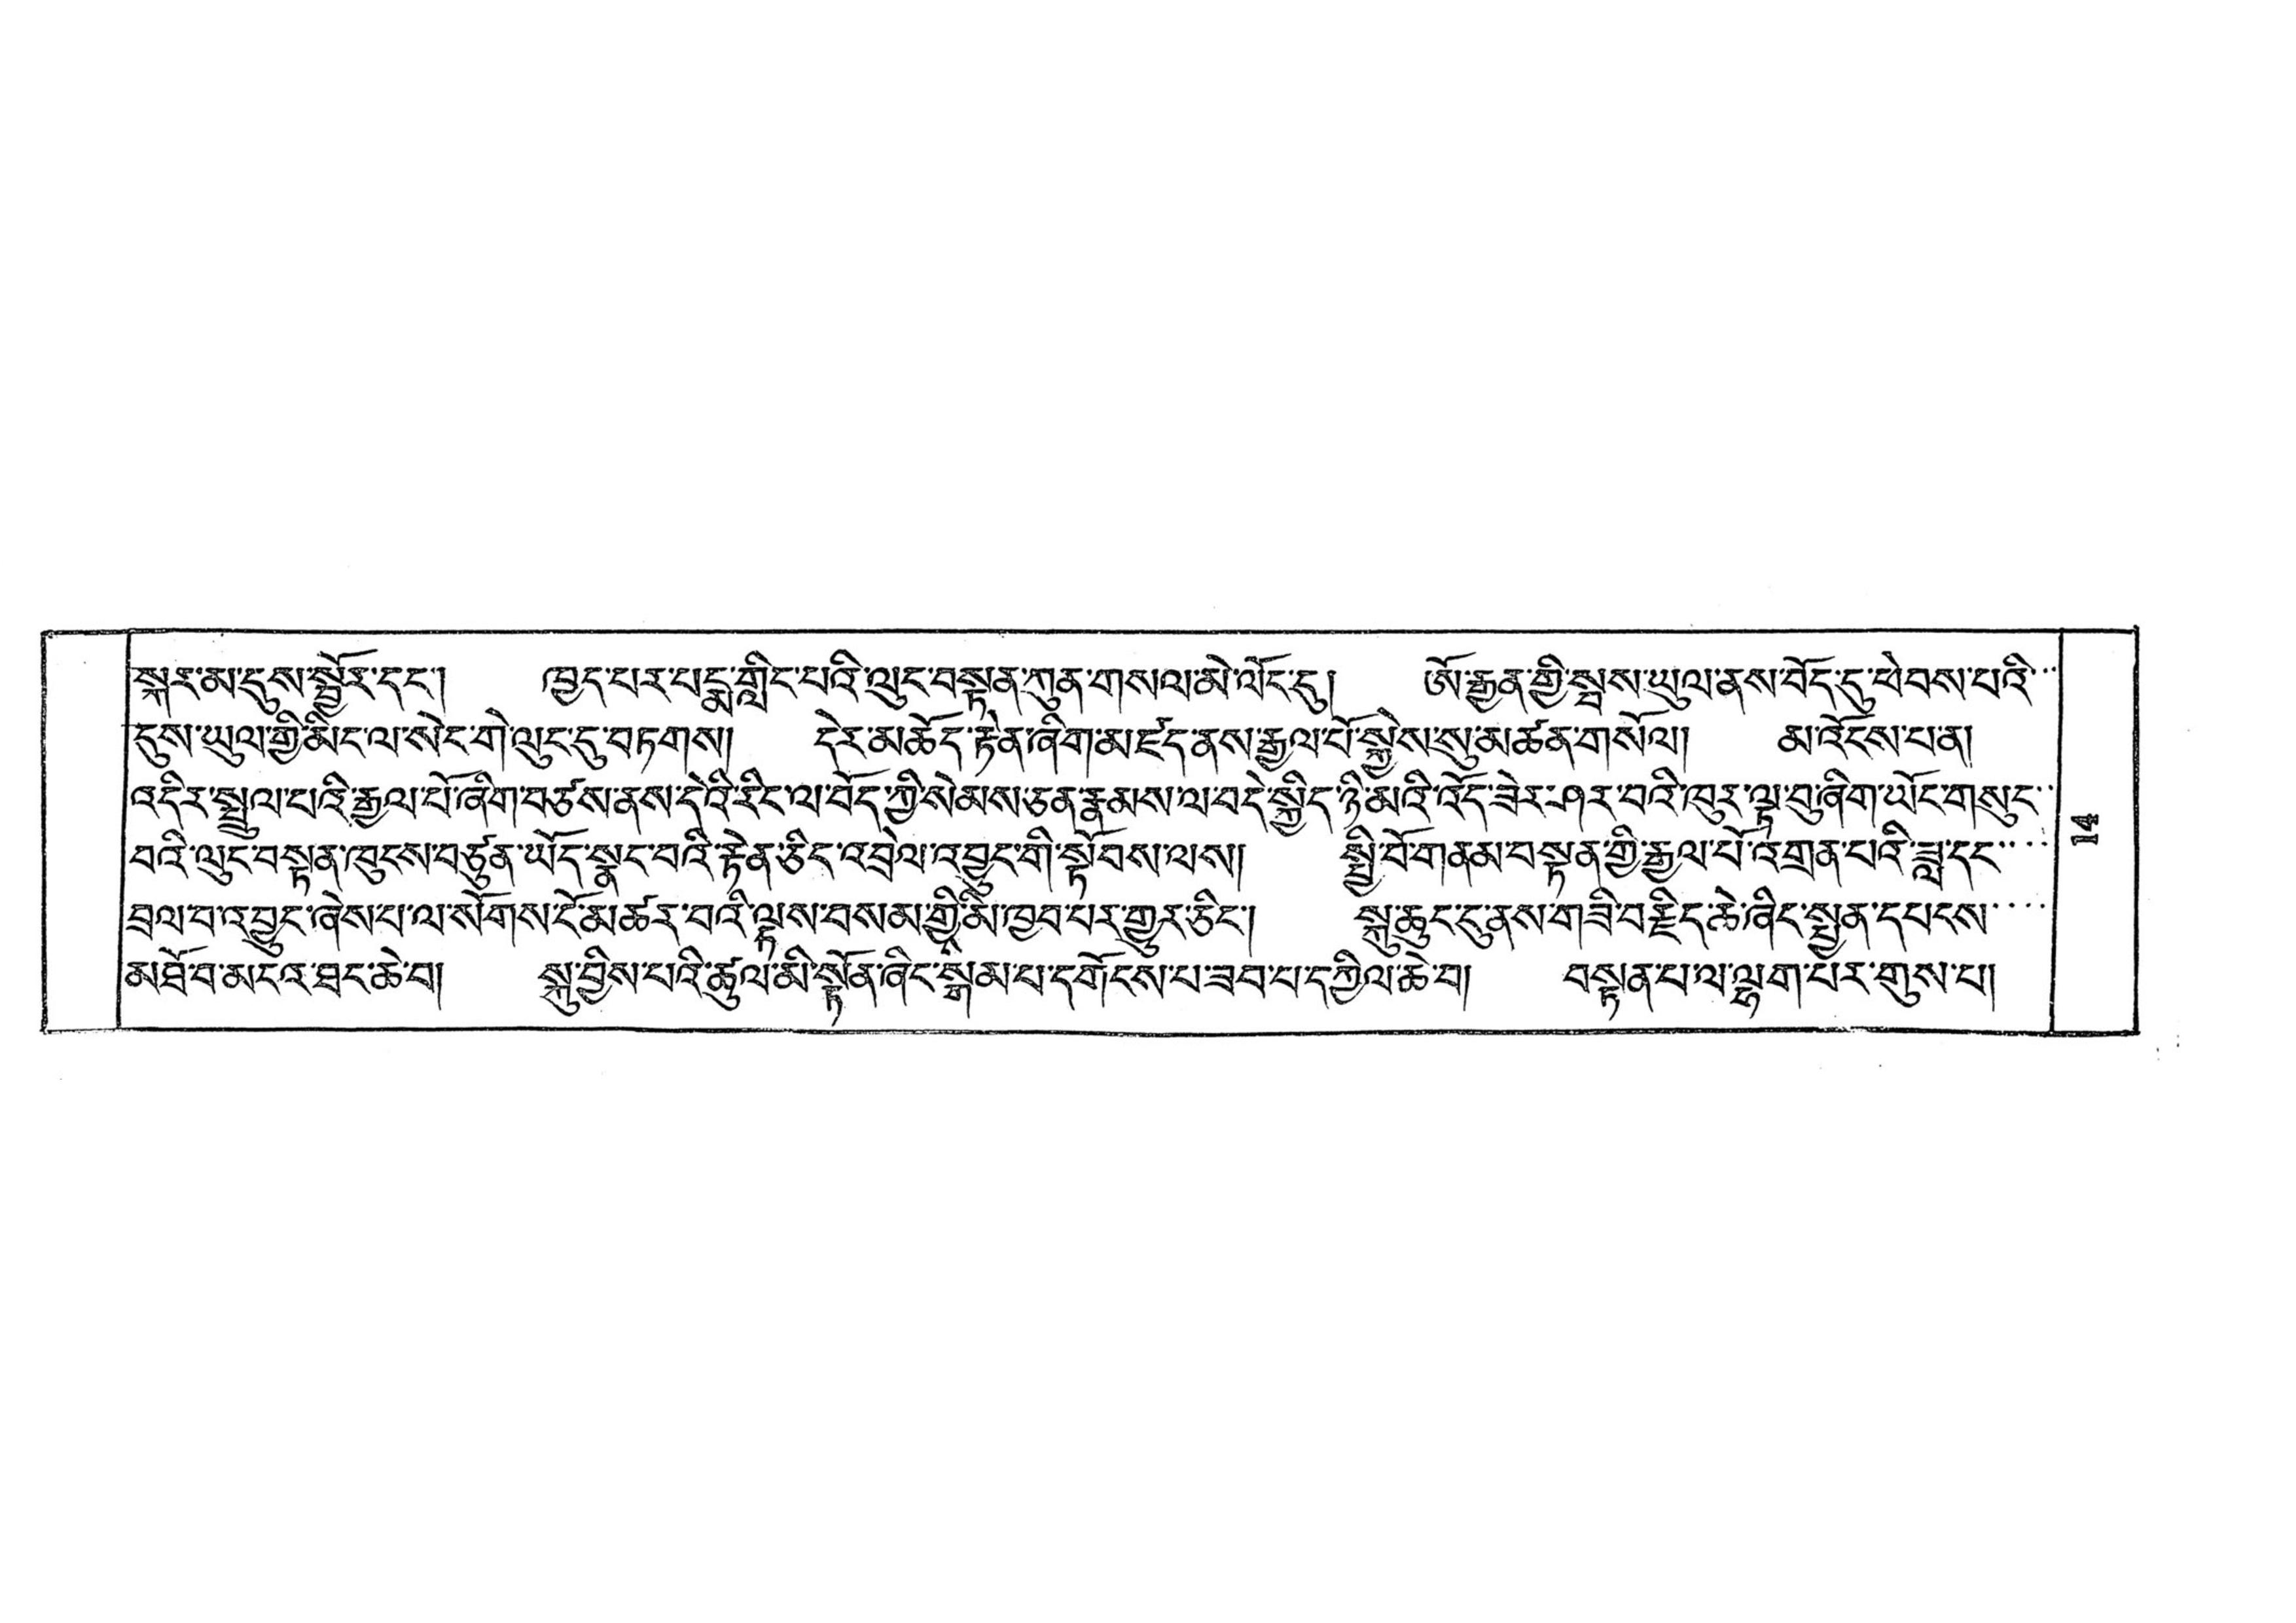སྐར་མ་དུས་སྦྱོར་དང་། ཁྱད་པར་པདྨ་གླིང་པའི་ལུང་བསྟན་ཀུན་གསལ་མེ་ལོང་དུ། ཨོ་རྒྱན་གྱི་སྦས་ཡུལ་ནས་བོད་དུ་ཕེབས་པའི་་་
དུས་ཡུལ་གྱི་མིང་ལ་སེང་གེ་ལུང་དུ་བཏགས། དེར་མཆོད་རྟེན་ཞིག་མཛད་ནས་རྒྱལ་པོ་སྐྱེས་སུ་མཚན་གསོལ། མའོངས་པ་ན།
འདིར་སྤྲུལ་པའི་རྒྱལ་པོ་ཞིག་བཙས་ནས་དེའི་རིང་ལ་བོད་ཀྱི་སེམས་ཅན་རྣམས་ལ་བདེ་སྐྱིད་ཉི་མའི་འོད་ཟེར་ཤར་བའི་ཁུར་ལྟ་བུ་ཞིག་ཡོང་གསུང་་
བའི་ལུང་བསྟན་ཁུངས་བཙུན་ཡོད་སྣང་བའི་རྟེན་ཅིང་འབྲེལ་འབྱུང་གི་སྟོབས་ལས། སྤྱི་བོ་གནམ་བསྟན་གྱི་རྒྱལ་པོ་འགྲན་པའི་ཟླ་དང་་་་
བྲལ་བ་འབྱུང་ཞེས་པ་ལ་སོགས་ངོ་མཚར་བའི་ལྟས་བསམ་གྱིས་མི་ཁྱབ་པར་གྱུར་ཅིང་། སྐུ་ཆུང་ངུ་ནས་གཟི་བརྗིད་ཆེ་ཞིང་སྤྱན་དཔངས་་་་
མཐོ་བ་མངའ་ཐང་ཆེ་བ། སྐུ་བྱིས་པའི་ཚུལ་མི་སྟོན་ཞིང་སྒམ་པ་དགོངས་པ་ཟབ་པ་དཀྱིལ་ཆེ་བ། བསྟན་པ་ལ་ལྷག་པར་གུས་པ།
